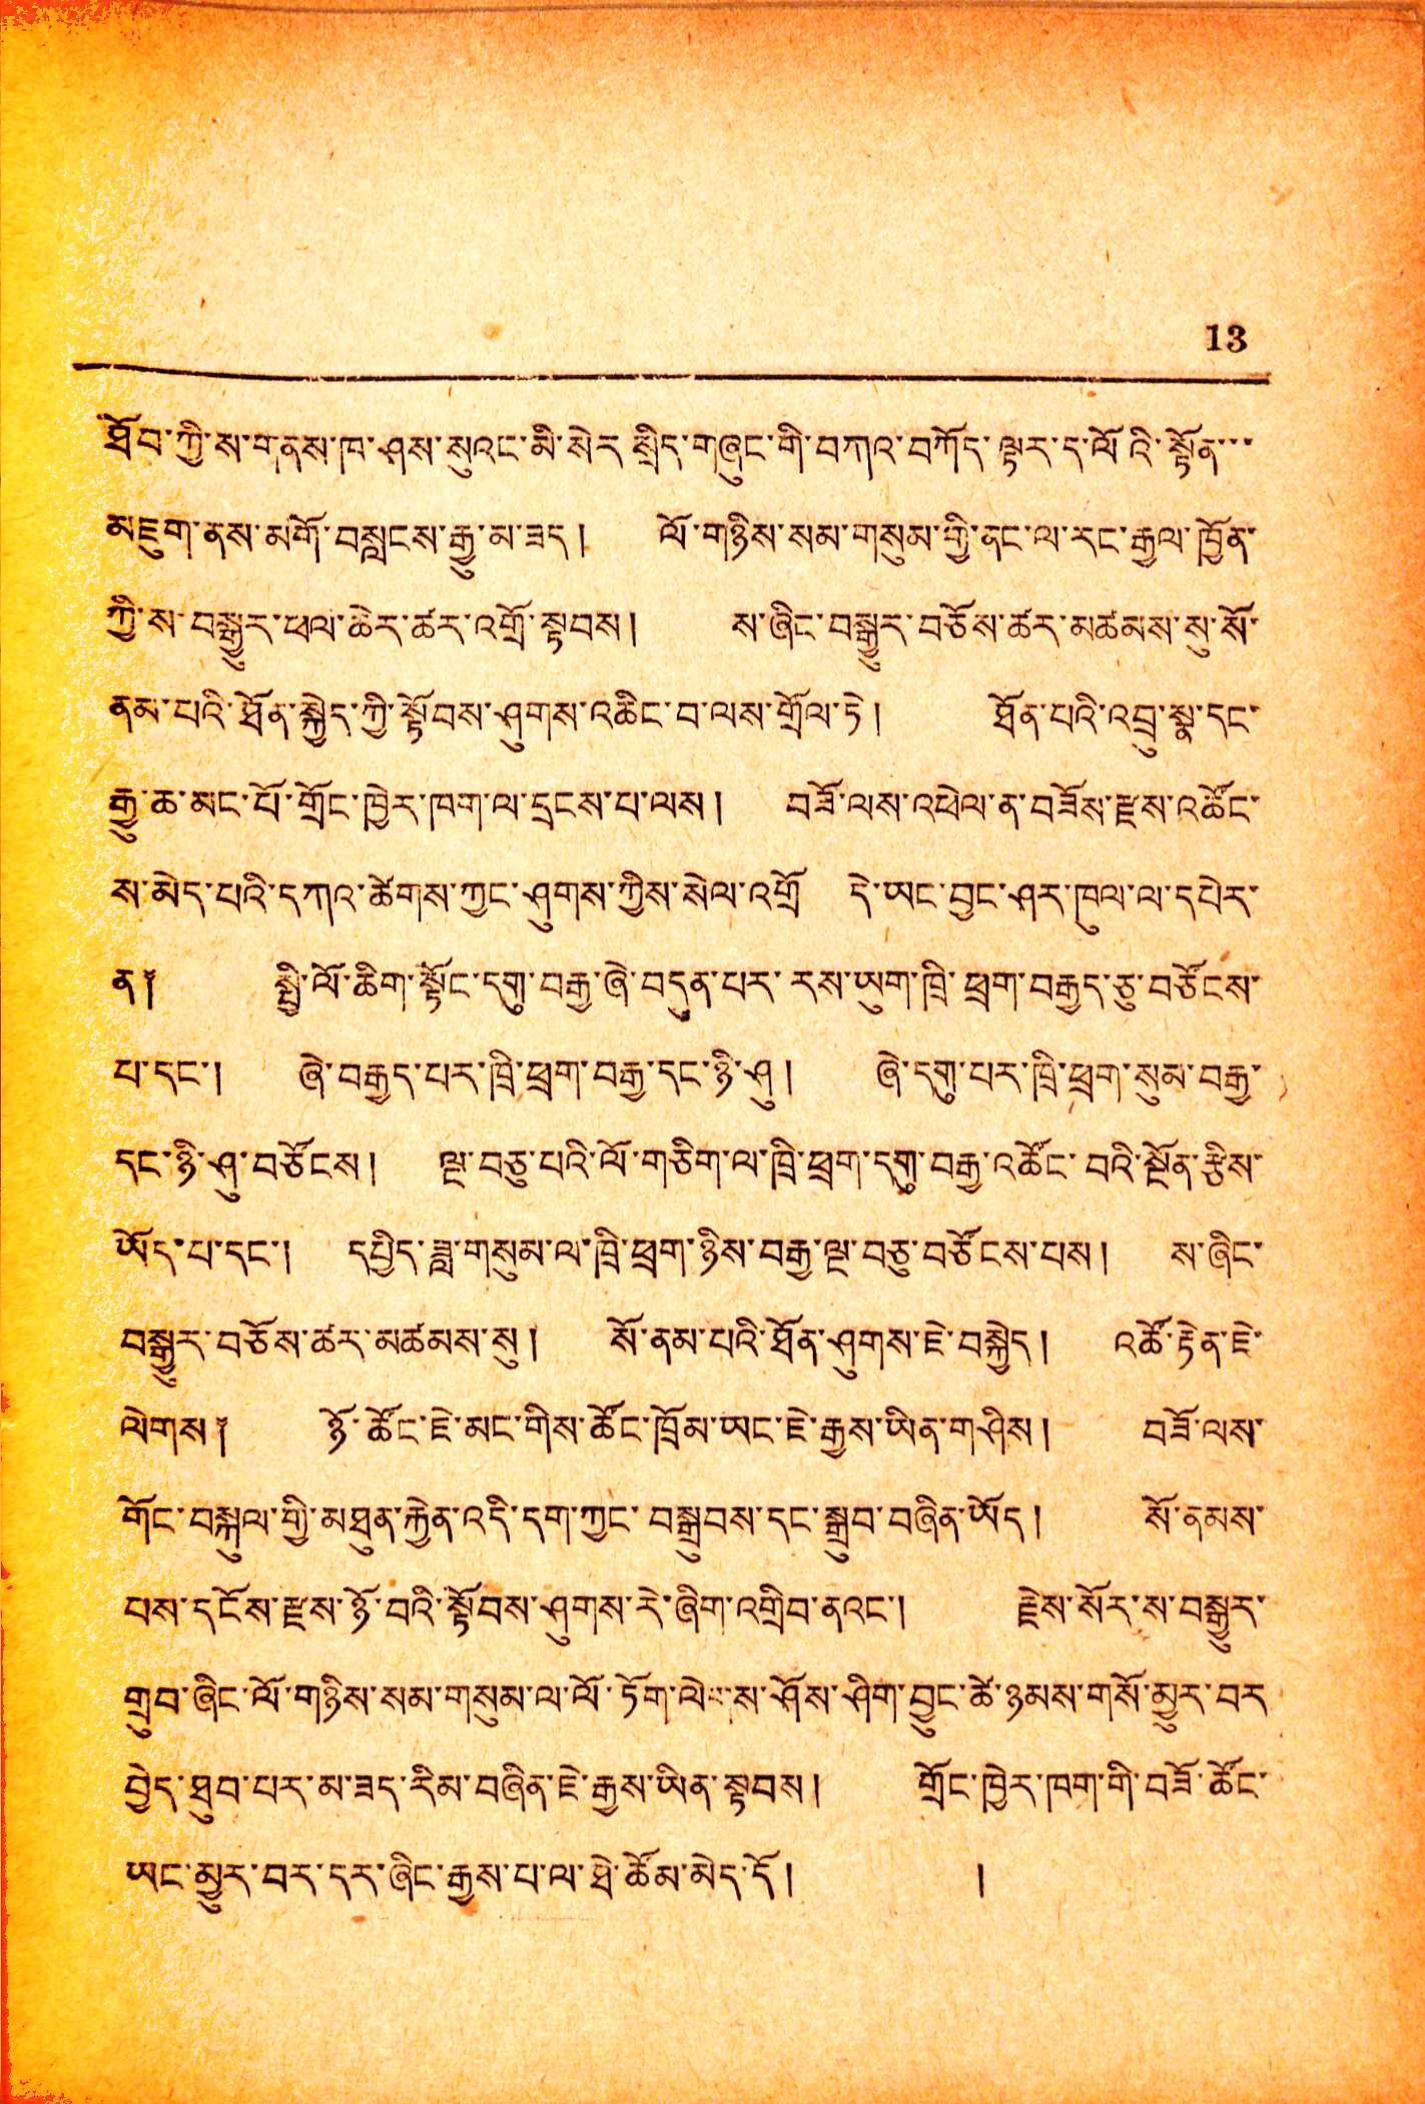13
ཐོབ་ཀྱི་ས་གནས་ཁ་ཤས་སུའང་མི་སེར སྲིད་གཞུང་གི་བཀའ་བཀོད་ལྟར་ད་ལོའི་སྟོན་་་
མཇུག་ནས་མགོ་བསླངས་རྒྱུ་མ་ཟད། ལོ་གཉིས་སམ་གསུམ་གྱི་ནང་ལ་རང་རྒྱལ་ཁྱོན་
ཀྱི་ས་བསྐྱུར་ཕལ་ཆེར་ཚར་འགྲོ་སྟབས། ས་ཞིང་བསྒྱུར་བཅོས་ཚར་མཚམས་སུ་སོ་
ནམ་པའི་ཐོན་སྐྱིད་ཀྱི་སྟོབས་ཤུགས་འཆིང་བ་ལས་གྲོལ་ཏེ། ཐོན་པའི་འབྲུ་སྣ་དང་
རྒྱུ་ཆ་མང་པོ་གྲོང་ཁྱེར་ཁག་ལ་དྲངས་བ་ལས། བཟོ་ལས་འཕེལ་ན་བཟོས་རྫས་འཚོང་
ས་མེད་པའི་དཀའ་ཚེགས་ཀྱང་ཤུགས་ཀྱིས་སེལ་འགྲོ དེ་ཡང་བྱང་ཤར་ཁུལ་ལ་དཔེར་
ན༐ སྤྱི་ལོ་ཆིག་སྟོང་འགུ་བརྒྱ་ཞེ་བདུན་པར་རས་ཡུག་ཁྲི་ཕྲག་བརྒྱད་ཅུ་བཙོངས་
པ་དང་། ཞེ་བརྒྱད་པར་ཁྲི་ཕྲག་བརྒྱ་དང་ཉི་ཤུ། ཞེ་དགུ་པར་ཁྲི་ཕྲག་སུམ་བརྒྱ་
དང་ཉི་ཤུ་བཅོངས། ལྔ་བཅུ་པའི་ལོ་གཅིག་ལ་ཁྲི་ཕྲག་དགུ་བརྒྱ་འཚོང་བའི་སྔོན་རྩིས་
ཡོད་པ་དང་། དཔྱིད་ཟླ་གསུམ་ལ་ཁྲི་ཕྲག་ཉིས་བརྒྱ་ལྔ་བཅུ་བཙོངས་པས། ས་ཞིང་
བསྒྱུར་བཅོས་ཚར་མཚམས་སུ། སོ་ནམ་པའི་ཐོན་ཤུགས་ཇེ་བསྐྱེད། འཚོ་རྟེན་ཇེ་
ལེགས༐ ཉོ་ཚོང་ཇེ་མང་གིས་ཚོང་ཁྲོམ་ཡང་ཇེ་རྒྱས་ཡིན་གཤིས། བཟོ་ལས་
གོང་བསྐུལ་གྱི་མཐུན་རྐྱེན་འདི་དག་ཀྱང་བསྒྲུབས་དང་སྒྲུབ་བཞིན་ཡོད། སོ་ནམས་
བས་དངོས་རྫས་ཉོ་བའི་སྟོབས་ཤུགས་རེ་ཞིག་འགྲིབ་ནའང་། རྗེས་སོར་ས་བསྒྱུར་
གུབ་ཞིང་ལོ་གཉིས་སམ་གསུམ་ལ་ལོ་ཏོག་ལེགས་ཤོས་ཤིག་བྱུང་ཚེ་ཉམས་གསོ་མྱུར་བར་
བྱེད་ཐུབ་པར་མ་ཟད་རིམ་བཞིན་ཇེ་རྒྱས་ཡིན་སྟབས། གྲོང་ཁྱེར་ཁག་གི་བཟོ་ཚོང་
ཡང་མྱུར་བར་དར་ཞིང་རྒྱས་པ་ལ་ཐེ་ཚོམ་མེད་དོ། །
